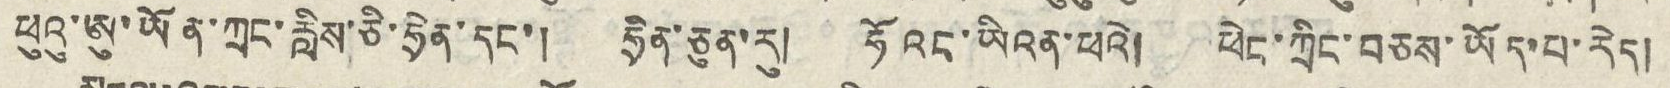ཕུའུ་ཨུ་ཡོན་ཀྲང་རླིས་ཅི་ཧྲེན་དང་། ཧྲིན་ཅུན་རུ། ཧོའང་ཡིའན་ཕའེ། ཕེང་ཀྲིང་བཅས་ཡོད་པ་རེད།
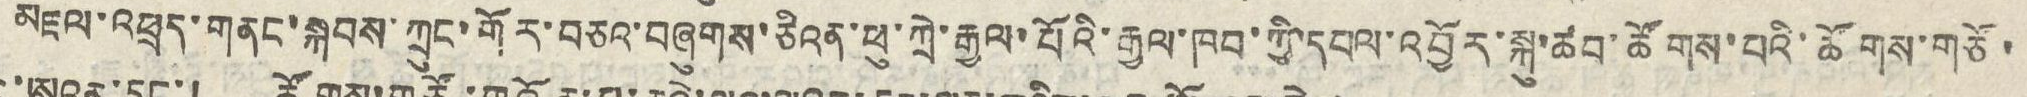མཇལ་འཕྲད་གནང་སྐབས་ཀྲུང་གོར་བཅའ་བཞུགས་ཅིའན་ཕུ་ཀྲེ་རྒྱལ་པོའི་རྒྱལ་ཁབ་ཀྱི་དཔལ་འབྱོར་སྐུ་ཚབ་ཚོགས་པའི་ཚོགས་གཙོ་
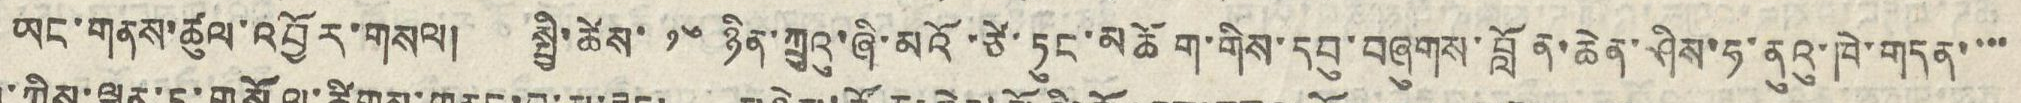ཡང་གནས་ཚུལ་འབྱོར་གསལ། སྤྱི་ཚེས་ ༡༦ ཉིན་ཀྲུའུ་ཞི་མའོ་ཙེ་ཏུང་མཆོག་གིས་དབུ་བཞུགས་བློན་ཆེན་ཤིས་ཧ་ནའུ་ཁེ་གདན་་་་
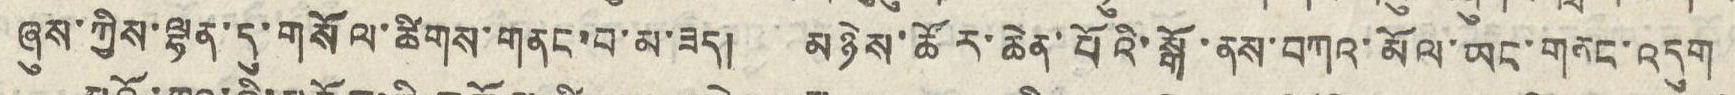ཞུས་ཀྱིས་ལྷན་དུ་གསོལ་ཚིགས་གནང་བ་མ་ཟད། མཉེས་ཚོར་ཆེན་པོའི་སྒོ་ནས་བཀའ་མོལ་ཡང་གནང་འདུག
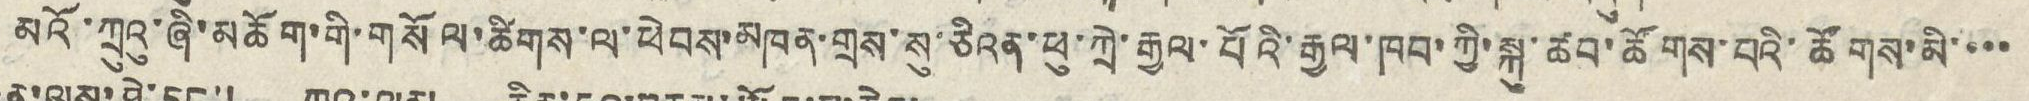མའོ་ཀྲུའུ་ཞི་མཆོག་གི་གསོལ་ཚིགས་ལ་ཕེབས་མཁན་གྲས་སུ་ཅིའན་ཕུ་ཀྲེ་རྒྱལ་པོའི་རྒྱལ་ཁབ་ཀྱི་སྐུ་ཚབ་ཚོགས་པའི་ཚོགས་མི་་་་
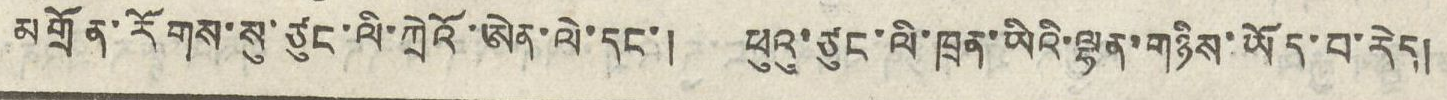མགྲོན་རོགས་སུ་ཙུང་ལི་ཀྲེའོ་ཨེན་ལེ་དང་། ཕུའུ་ཙུང་ལི་ཁྲན་ཡིའི་ལྷན་གཉིས་ཡོད་པ་རེད།
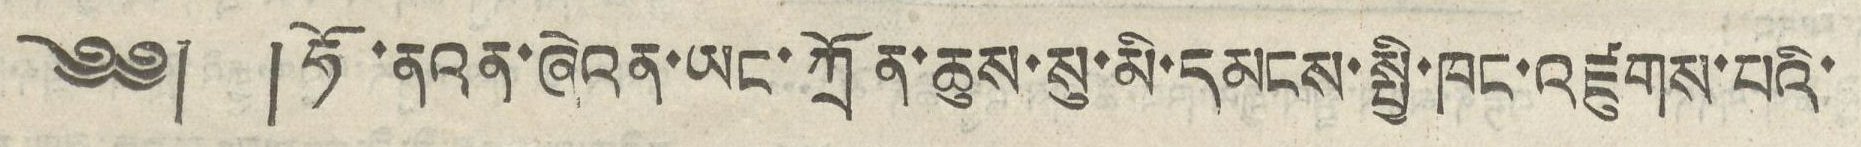༄༅། ། ཧོ་ནའན་ཞེའན་ཡང་ཀྲོན་ཆུས་སུ་མི་དམངས་སྤྱི་ཁང་འཛུགས་པའི་
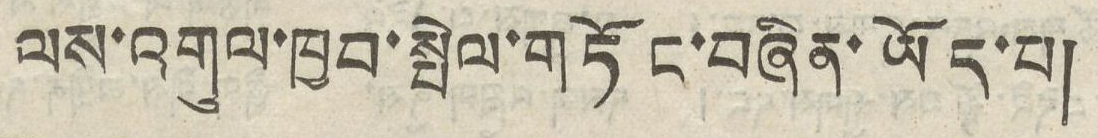ལས་འགུལ་ཁྱབ་སྤེལ་གཏོང་བཞིན་ཡོད་པ།
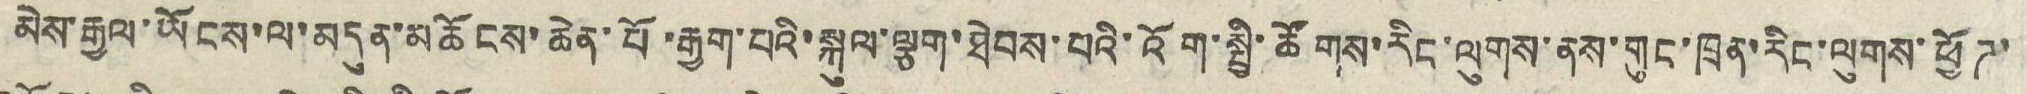མེས་རྒྱལ་ཡོངས་ལ་མདུན་མཆོངས་ཆེན་པོ་རྒྱག་པའི་སྐུལ་ལྕག་ཐེབས་པའི་འོག་སྤྱི་ཚོགས་རིང་ལུགས་ནས་གུང་ཁྲན་རིང་ལུགས་ཕྱོཌ་
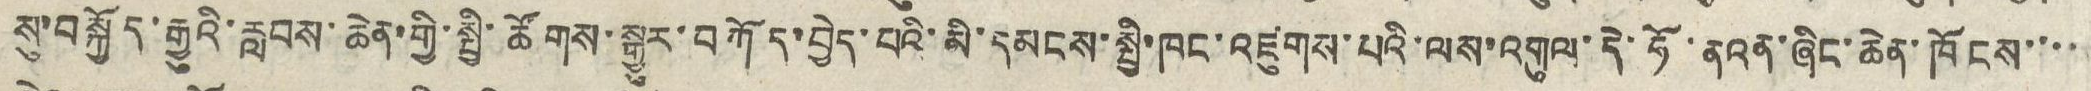སུ་བསྐྱོད་རྒྱུའི་རླབས་ཆེན་གྱི་སྤྱི་ཚོགས་སྒྱུར་བཀོད་བྱེད་པའི་མི་དམངས་སྤྱི་ཁང་འཛུགས་པའི་ལས་འགུལ་དེ་ཧོ་ནའན་ཞིང་ཆེན་ཁོངས་་་་
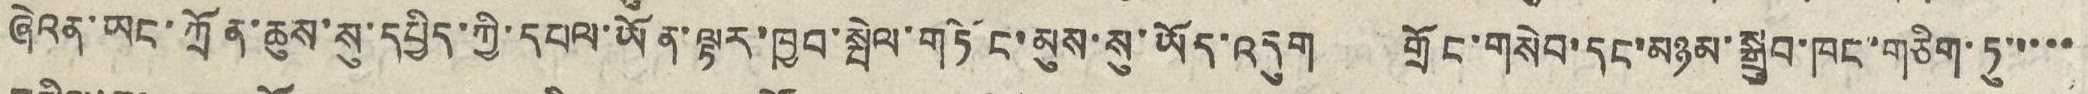ཞེའན་ཡང་ཀྲོན་ཆུས་སུ་དཔྱིད་ཀྱི་དཔལ་ཡོན་ལྟར་ཁྱབ་སྤེལ་གཏོང་མུས་སུ་ཡོད་འདུག གྲོང་གསེབ་དང་མཉམ་སྒྲུབ་ཁང་གཅིག་ཏུ་་་་་
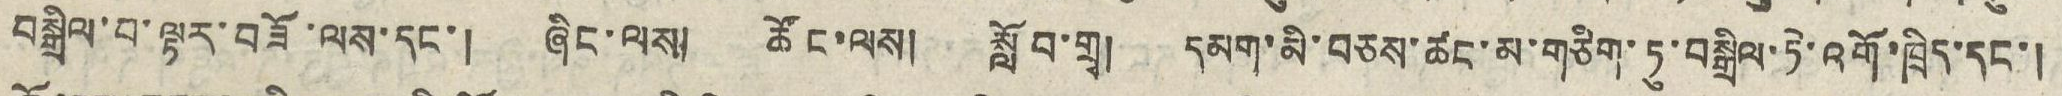བསྒྲིལ་བ་ལྟར་བཟོ་ལས་དང་། ཞིང་ལས། ཚོང་ལས། སློབ་གྲྭ། དམག་མི་བཅས་ཚང་མ་གཅིག་ཏུ་བསྒྲིལ་ཏེ་འགོ་ཁྲིད་དང་།
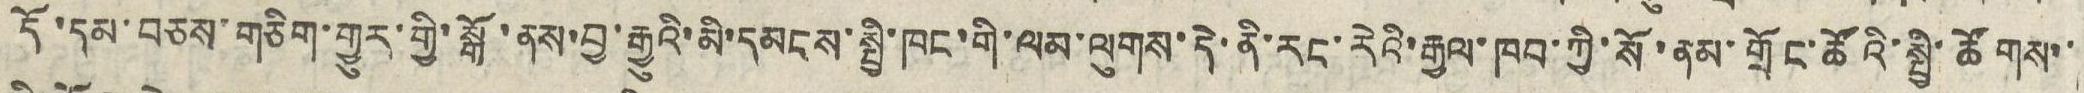དོ་དམ་བཅས་གཅིག་གྱུར་གྱི་སྒོ་ནས་བྱ་རྒྱུའི་མི་དམངས་སྤྱི་ཁང་གི་ལམ་ལུགས་དེ་ནི་རང་རེའི་རྒྱལ་ཁབ་ཀྱི་སོ་ནམ་གྲོང་ཚོའི་སྤྱི་ཚོགས་་
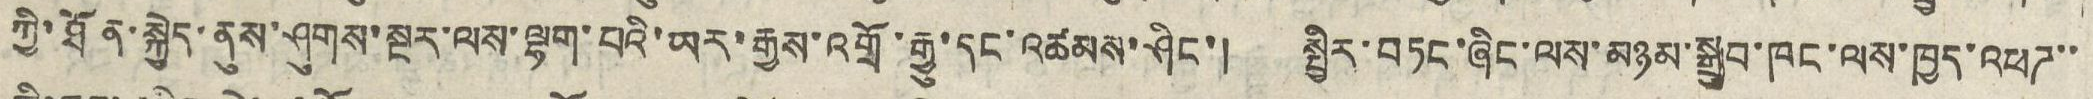ཀྱི་ཐོན་སྐྱེད་ནུས་ཤུགས་སྔར་ལས་ལྷག་པའི་ཡར་རྒྱས་འགྲོ་རྒྱུ་དང་འཚམས་ཤིང་། སྤྱིར་བཏང་ཞིང་ལས་མཉམ་སྒྲུབ་ཁང་ལས་ཁྱད་འཕཌ་་
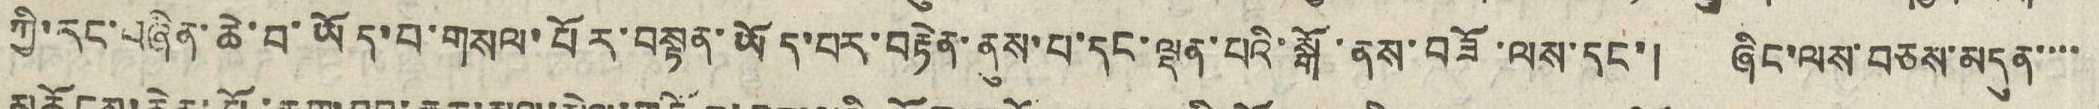ཀྱི་རང་བཞིན་ཆེ་བ་ཡོད་པ་གསལ་པོར་བསྟན་ཡོད་པར་བརྟེན་ནུས་པ་དང་ལྡན་པའི་སྒོ་ནས་བཟོ་ལས་དང་། ཞིང་ལས་བཅས་མདུན་་་་
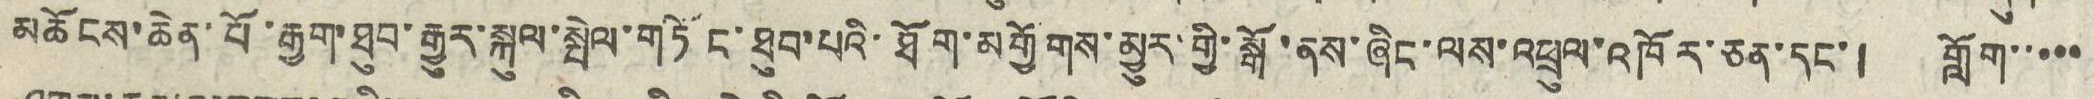མཆོངས་ཆེན་པོ་རྒྱག་ཐུབ་རྒྱུར་སྐུལ་སྤེལ་གཏོང་ཐུབ་པའི་ཐོག་མགྱོགས་མྱུར་གྱི་སྒོ་ནས་ཞིང་ལས་འཕྲུལ་འཁོར་ཅན་དང་། གློག་་་་་
